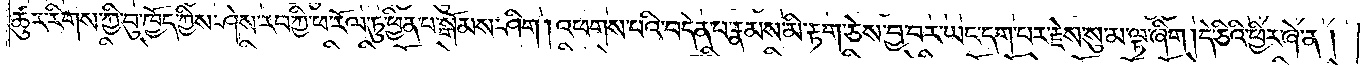ཚུར་རིགས་ཀྱི་བུ་ཁྱོད་ཀྱིས་ཤེས་རབ་ཀྱི་ཕ་རོལ་ཏུ་ཕྱིན་པ་སྒོམས་ཤིག །འཕགས་པའི་བདེན་པ་རྣམས་མི་རྟག་ཅེས་བྱ་བར་ཡང་དག་པར་རྗེས་སུ་མ་ལྟ་ཞིག །དེ་ཅིའི་ཕྱིར་ཞེ་ན།
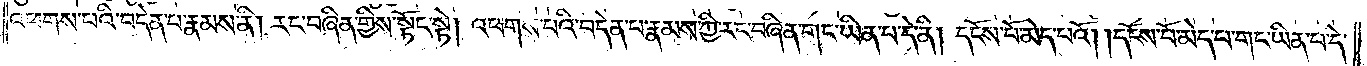འཕགས་པའི་བདེན་པ་རྣམས་ནི། རང་བཞིན་གྱིས་སྟོང་སྟེ། འཕགས་པའི་བདེན་པ་རྣམས་ཀྱི་རང་བཞིན་གང་ཡིན་པ་དེ་ནི། དངོས་པོ་མེད་པའོ། །དངོས་པོ་མེད་པ་གང་ཡིན་པ་དེ་
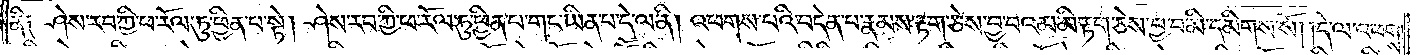ནི༑ ཤེས་རབ་ཀྱི་ཕ་རོལ་ཏུ་ཕྱིན་པ་སྟེ། ཤེས་རབ་ཀྱི་ཕ་རོལ་ཏུ་ཕྱིན་པ་གང་ཡིན་པ་དེ་ལ་ནི། འཕགས་པའི་བདེན་པ་རྣམས་རྟག་ཅེས་བྱ་བའམ་མི་རྟག་ཅེས་བྱ་བ་མི་དམིགས་སོ། །དེ་ལ་འཕགས་
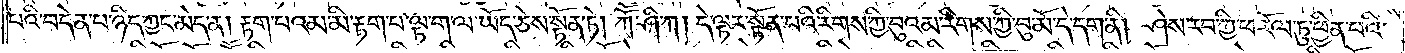པའི་བདེན་པ་ཉིད་ཀྱང་མེད་ན། རྟག་པའམ་མི་རྟག་པ་ལྟ་ག་ལ་ཡོད་ཅེས་སྟོན་ཏེ། ཀཽ་ཤི་ཀ། དེ་ལྟར་སྟོན་པའི་རིགས་ཀྱི་བུའམ་རིགས་ཀྱི་བུ་མོ་དེ་དག་ནི། ཤེས་རབ་ཀྱི་ཕ་རོལ་ཏུ་ཕྱིན་པའི་
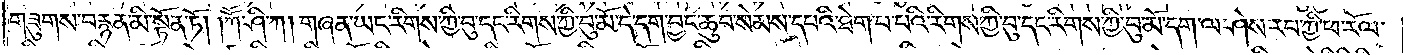གཟུགས་བརྙན་མི་སྟོན་ཏོ། །ཀཽ་ཤི་ཀ། གཞན་ཡང་རིགས་ཀྱི་བུ་དང་རིགས་ཀྱི་བུ་མོ་དེ་དག་བྱང་ཆུབ་སེམས་དཔའི་ཐེག་པ་པའི་རིགས་ཀྱི་བུ་དང་རིགས་ཀྱི་བུ་མོ་དག་ལ་ཤེས་རབ་ཀྱི་ཕ་རོལ་
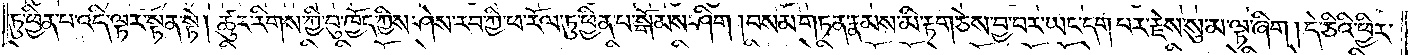ཏུ་ཕྱིན་པ་འདི་ལྟར་སྟོན་ཏེ། ཚུར་རིགས་ཀྱི་བུ་ཁྱོད་ཀྱིས་ཤེས་རབ་ཀྱི་ཕ་རོལ་ཏུ་ཕྱིན་པ་སྒོམས་ཤིག །བསམ་གཏན་རྣམས་མི་རྟག་ཅེས་བྱ་བར་ཡང་དག་པར་རྗེས་སུ་མ་ལྟ་ཞིག །དེ་ཅིའི་ཕྱིར་
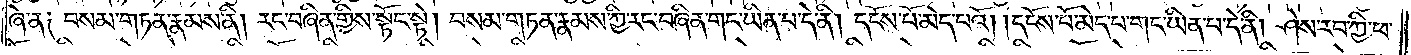ཞེ་ན༑ བསམ་གཏན་རྣམས་ནི། རང་བཞིན་གྱིས་སྟོང་སྟེ། བསམ་གཏན་རྣམས་ཀྱི་རང་བཞིན་གང་ཡིན་པ་དེ་ནི། དངོས་པོ་མེད་པའོ། །དངོས་པོ་མེད་པ་གང་ཡིན་པ་དེ་ནི། ཤེས་རབ་ཀྱི་ཕ་
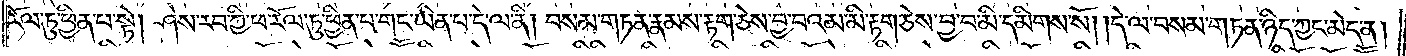རོལ་ཏུ་ཕྱིན་པ་སྟེ། ཤེས་རབ་ཀྱི་ཕ་རོལ་ཏུ་ཕྱིན་པ་གང་ཡིན་པ་དེ་ལ་ནི། བསམ་གཏན་རྣམས་རྟག་ཅེས་བྱ་བའམ་མི་རྟག་ཅེས་བྱ་བ་མི་དམིགས་སོ། །དེ་ལ་བསམ་གཏན་ཉིད་ཀྱང་མེད་ན།
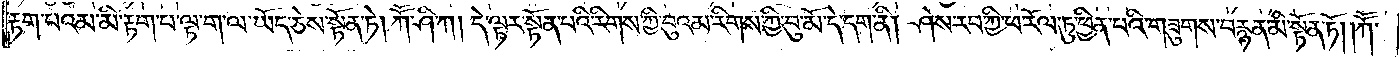རྟག་པའམ་མི་རྟག་པ་ལྟ་ག་ལ་ཡོད་ཅེས་སྟོན་ཏེ། ཀཽ་ཤི་ཀ། དེ་ལྟར་སྟོན་པའི་རིགས་ཀྱི་བུའམ་རིགས་ཀྱི་བུ་མོ་དེ་དག་ནི། ཤེས་རབ་ཀྱི་ཕ་རོལ་ཏུ་ཕྱིན་པའི་གཟུགས་བརྙན་མི་སྟོན་ཏོ། །ཀཽ་
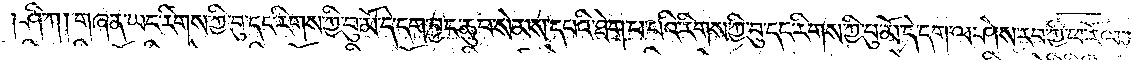ཤི་ཀ། གཞན་ཡང་རིགས་ཀྱི་བུ་དང་རིགས་ཀྱི་བུ་མོ་དེ་དག་བྱང་ཆུབ་སེམས་དཔའི་ཐེག་པ་པའི་རིགས་ཀྱི་བུ་དང་རིགས་ཀྱི་བུ་མོ་དེ་དག་ལ་ཤེས་རབ་ཀྱི་ཕ་རོལ་ཏུ་
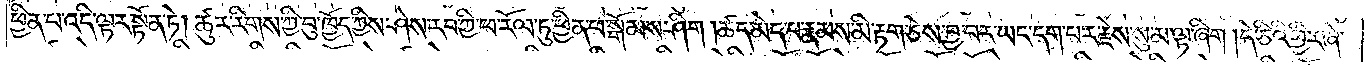ཕྱིན་པ་འདི་ལྟར་སྟོན་ཏེ། ཚུར་རིགས་ཀྱི་བུ་ཁྱོད་ཀྱིས་ཤེས་རབ་ཀྱི་ཕ་རོལ་ཏུ་ཕྱིན་པ་སྒོམས་ཤིག །ཚད་མེད་པ་རྣམས་མི་རྟག་ཅེས་བྱ་བར་ཡང་དག་པར་རྗེས་སུ་མ་ལྟ་ཞིག །དེ་ཅིའི་ཕྱིར་ཞེ་
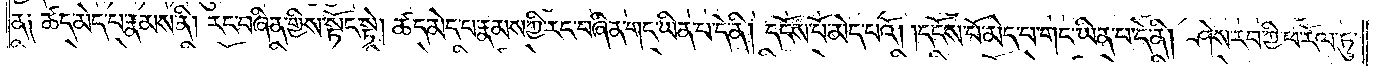ན༑ ཚད་མེད་པ་རྣམས་ནི། རང་བཞིན་གྱིས་སྟོང་སྟེ། ཚད་མེད་པ་རྣམས་ཀྱི་རང་བཞིན་གང་ཡིན་པ་དེ་ནི། དངོས་པོ་མེད་པའོ། །དངོས་པོ་མེད་པ་གང་ཡིན་པ་དེ་ནི། ཤེས་རབ་ཀྱི་ཕ་རོལ་ཏུ་
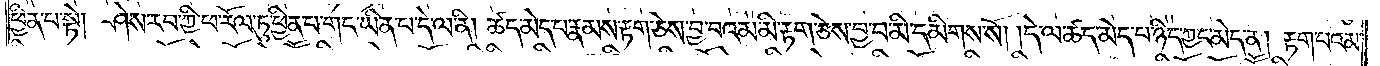ཕྱིན་པ་སྟེ། ཤེས་རབ་ཀྱི་ཕ་རོལ་ཏུ་ཕྱིན་པ་གང་ཡིན་པ་དེ་ལ་ནི། ཚད་མེད་པ་རྣམས་རྟག་ཅེས་བྱ་བའམ་མི་རྟག་ཅེས་བྱ་བ་མི་དམིགས་སོ། །དེ་ལ་ཚད་མེད་པ་ཉིད་ཀྱང་མེད་ན། རྟག་པའམ་
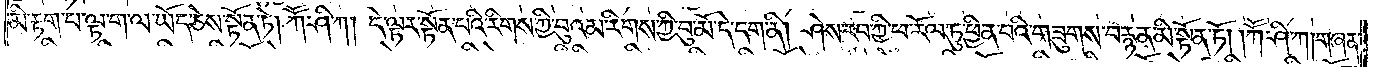མི་རྟག་པ་ལྟ་ག་ཡོད་ཅེས་སྟོན་ཏེ། ཀཽ་ཤི་ཀ། དེ་ལྟར་སྟོན་པའི་རིགས་ཀྱི་བུའམ་རིགས་ཀྱི་བུ་མོ་དེ་དག་ནི། ཤེས་རབ་ཀྱི་ཕ་རོལ་ཏུ་ཕྱིན་པའི་གཟུགས་བརྙན་མི་སྟོན་ཏོ། །ཀཽ་ཤི་ཀ། གཞན་
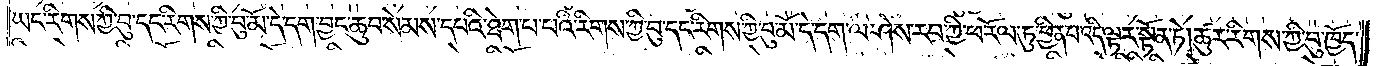ཡང་རིགས་ཀྱི་བུ་དང་རིགས་ཀྱི་བུ་མོ་དེ་དག་བྱང་ཆུབ་སེམས་དཔའི་ཐེག་པ་པའི་རིགས་ཀྱི་བུ་དང་རིགས་ཀྱི་བུ་མོ་དེ་དག་ལ་ཤེས་རབ་ཀྱི་ཕ་རོལ་ཏུ་ཕྱིན་པ་འདི་ལྟར་སྟོན་ཏེ། ཚུར་རིགས་ཀྱི་བུ་ཁྱོད་
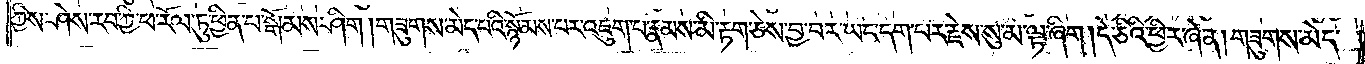ཀྱིས་ཤེས་རབ་ཀྱི་ཕ་རོལ་ཏུ་ཕྱིན་པ་སྒོམས་ཤིག །གཟུགས་མེད་པའི་སྙོམས་པར་འཇུག་པ་རྣམས་མི་རྟག་ཅེས་བྱ་བར་ཡང་དག་པར་རྗེས་སུ་མ་ལྟ་ཞིག །དེ་ཅིའི་ཕྱིར་ཞེ་ན། གཟུགས་མེད་
